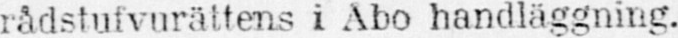rådstufvurättens i Åbo handläggning.
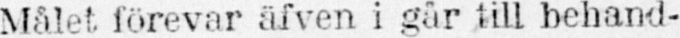Målet förevar äfven i går till behand-
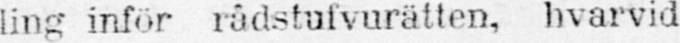ling inför rådstufvurätten, hvarvid
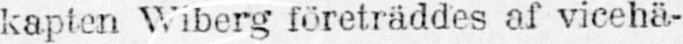kapten Wiberg företräddes af vicehä-
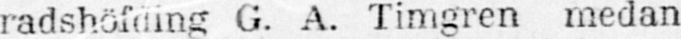radshöfding G. A. Timgren medan
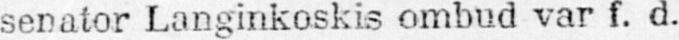sepator Langinkoskis ombud var f. d.
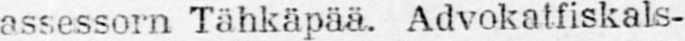assessorn Tähkäpää. Advokatfiskals-
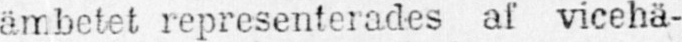ämbetet representerades af vicehä-
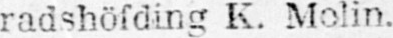radshöfding K. Molin.
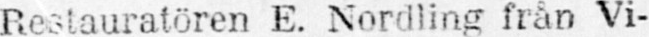Restauratören E. Nordling från Vi-
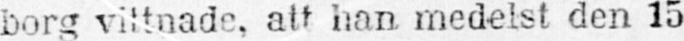borg vittnade, att han medelst den 15
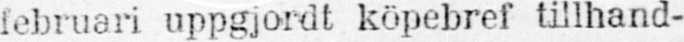februari uppgjordt köpebref tillhand-
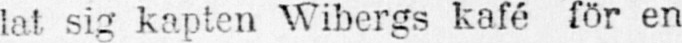lat sig kapten Wibergs kafé för en
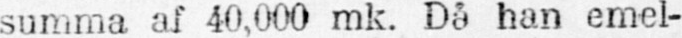summa af 40,000 mk. Då han emel-
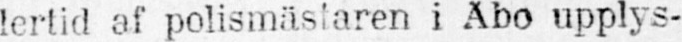lertid af polismästaren i Åbo upplys-
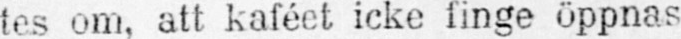tes om, att kaféet icke finge öppnas
